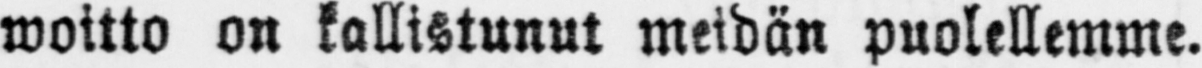woitto on kallistunut meidän puolellemme.
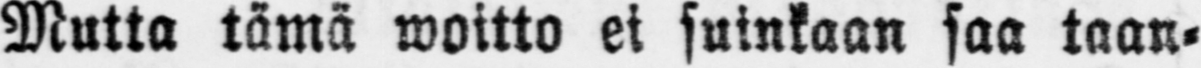Mutta tämä woitto ei suinkaan saa taan-
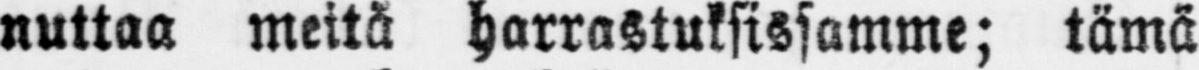nuttaa meitä harrastuksissamme; tämä
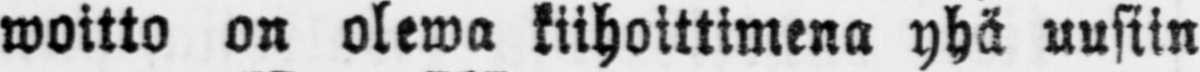woitto on olewa kiihoittimena yhä uusiin
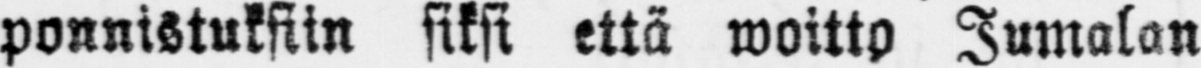ponnistuksiin siksi että woitto Jumalan
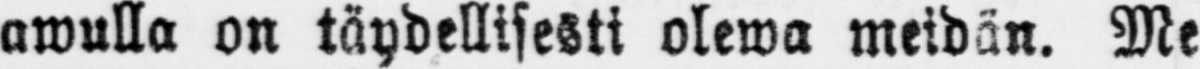awulla on täydellisesti olewa meidän. Me
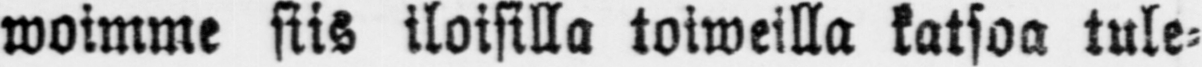woimme siis iloisilla toiweilla katsoa tule-
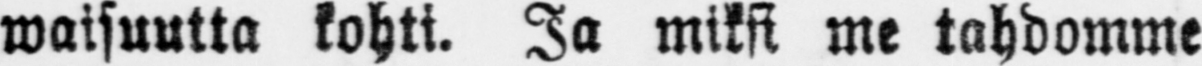waisuutta kohti. Ja miksi me tahdomme
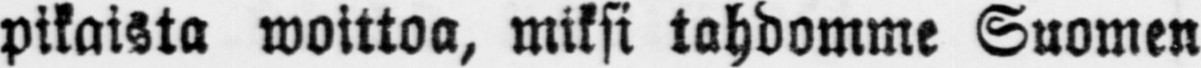pikaista woittoa, miksi tahdomme Suomen
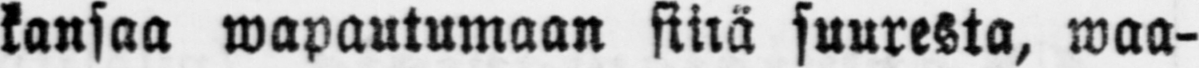kansaa wapautumaan siitä suuresta, waa-
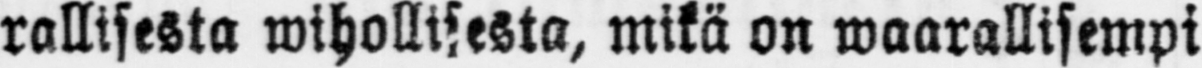rallisesta wihollisesta, mikä on waarallisempi
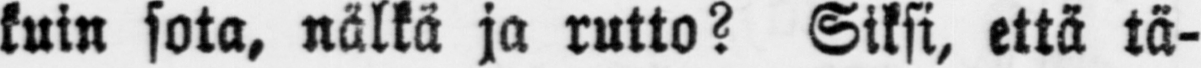kuin sota, nälkä ja rutto? Siksi, että tä-
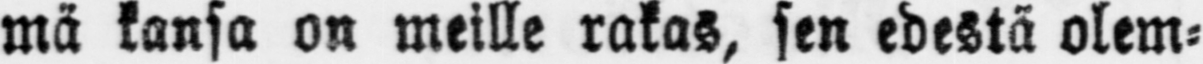mä kansa on meille rakas, sen edestä olem-
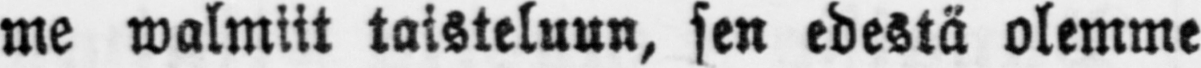me walmiit taisteluun, sen edestä olemme
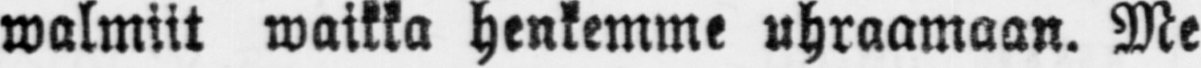walmiit waikka henkemme uhraamaan. Me
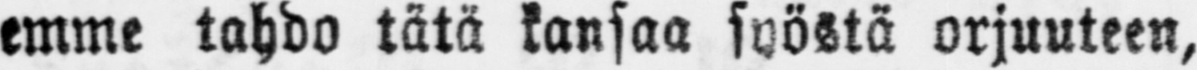emme tahdo tätä kansaa syöstä orjuuteen,
